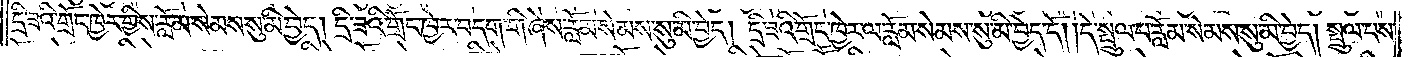དྲི་ཟའི་གྲོང་ཁྱེར་གྱིས་རློམ་སེམས་སུ་མི་བྱེད། དྲི་ཟའི་གྲོང་ཁྱེར་བདག་གི་ཞེས་རློམ་སེམས་སུ་མི་བྱེད། དྲི་ཟའི་གྲོང་ཁྱེར་ལ་རློམ་སེམས་སུ་མི་བྱེད་དོ། །དེ་སྤྲུལ་པ་རློམ་སེམས་སུ་མི་བྱེད། སྤྲུལ་པས་
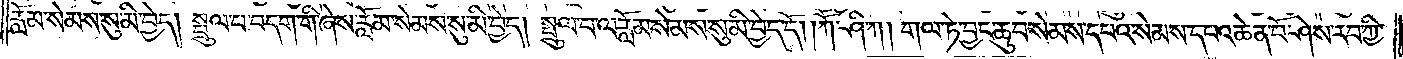རློམ་སེམས་སུ་མི་བྱེད། སྤྲུལ་པ་བདག་གི་ཞེས་རློམ་སེམས་སུ་མི་བྱེད། སྤྲུལ་པ་ལ་རློམ་སེམས་སུ་མི་བྱེད་དོ། །ཀཽ་ཤི་ཀ། གལ་ཏེ་བྱང་ཆུབ་སེམས་དཔའ་སེམས་དཔའ་ཆེན་པོ་ཤེས་རབ་ཀྱི་
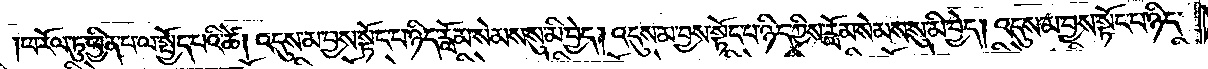ཕ་རོལ་ཏུ་ཕྱིན་པ་ལ་སྤྱོད་པའི་ཚེ། འདུས་མ་བྱས་སྟོང་པ་ཉིད་རློམ་སེམས་སུ་མི་བྱེད། འདུས་མ་བྱས་སྟོང་པ་ཉིད་ཀྱིས་རློམ་སེམས་སུ་མི་བྱེད། འདུས་མ་བྱས་སྟོང་པ་ཉིད་
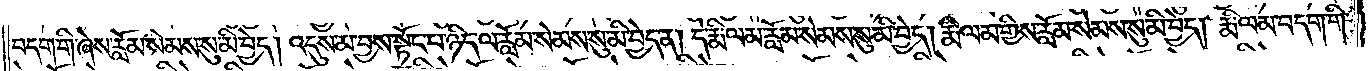བདག་གི་ཞེས་རློམ་སེམས་སུ་མི་བྱེད། འདུས་མ་བྱས་སྟོང་པ་ཉིད་ལ་རློམ་སེམས་སུ་མི་བྱེད་ན། དེ་རྨི་ལམ་རློམ་སེམས་སུ་མི་བྱེད། རྨི་ལམ་གྱིས་རློམ་སེམས་སུ་མི་བྱེད། རྨི་ལམ་བདག་གི་
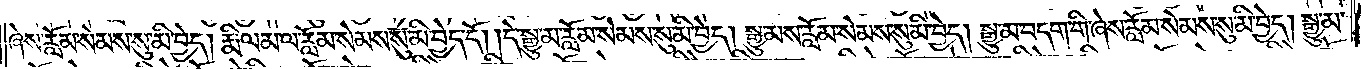ཞེས་རློམ་སེམས་སུ་མི་བྱེད། རྨི་ལམ་ལ་རློམ་སེམས་སུ་མི་བྱེད་དོ། །དེ་སྒྱུ་མ་རློམ་སེམས་སུ་མི་བྱེད། སྒྱུ་མས་རློམ་སེམས་སུ་མི་བྱེད། སྒྱུ་མ་བདག་གི་ཞེས་རློམ་སེམས་སུ་མི་བྱེད། སྒྱུ་མ་
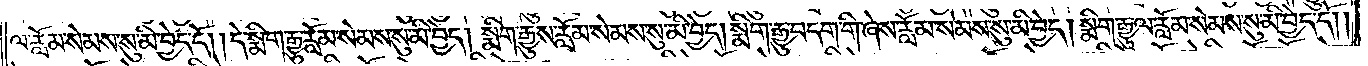ལ་རློམ་སེམས་སུ་མི་བྱེད་དོ། །དེ་སྨིག་རྒྱུ་རློམ་སེམས་སུ་མི་བྱེད། སྨིག་རྒྱུས་རློམ་སེམས་སུ་མི་བྱེད། སྨིག་རྒྱུ་བདག་གི་ཞེས་རློམ་སེམས་སུ་མི་བྱེད། སྨིག་རྒྱུ་ལ་རློམ་སེམས་སུ་མི་བྱེད་དོ། །
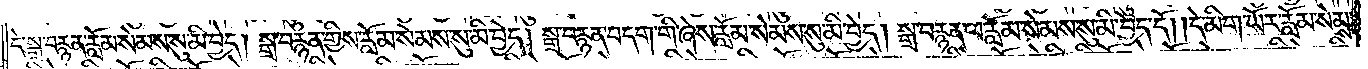དེ་སྒྲ་བརྙན་རློམ་སེམས་སུ་མི་བྱེད། སྒྲ་བརྙན་གྱིས་རློམ་སེམས་སུ་མི་བྱེད། སྒྲ་བརྙན་བདག་གི་ཞེས་རློམ་སེམས་སུ་མི་བྱེད། སྒྲ་བརྙན་ལ་རློམ་སེམས་སུ་མི་བྱེད་དོ། །དེ་མིག་ཡོར་རློམ་སེམས་
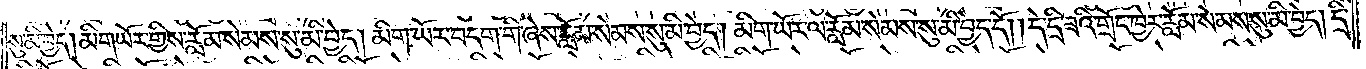སུ་མི་བྱེད། མིག་ཡོར་གྱིས་རློམ་སེམས་སུ་མི་བྱེད། མིག་ཡོར་བདག་གི་ཞེས་རློམ་སེམས་སུ་མི་བྱེད། མིག་ཡོར་ལ་རློམ་སེམས་སུ་མི་བྱེད་དོ། །དེ་དྲི་ཟའི་གྲོང་ཁྱེར་རློམ་སེམས་སུ་མི་བྱེད། དྲི་
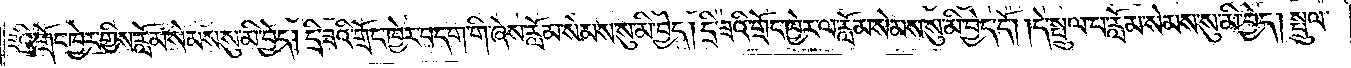ཟའི་གྲོང་ཁྱེར་གྱིས་རློམ་སེམས་སུ་མི་བྱེད། དྲི་ཟའི་གྲོང་ཁྱེར་བདག་གི་ཞེས་རློམ་སེམས་སུ་མི་བྱེད། དྲི་ཟའི་གྲོང་ཁྱེར་ལ་རློམ་སེམས་སུ་མི་བྱེད་དོ། །དེ་སྤྲུལ་པ་རློམ་སེམས་སུ་མི་བྱེད། སྤྲུལ་
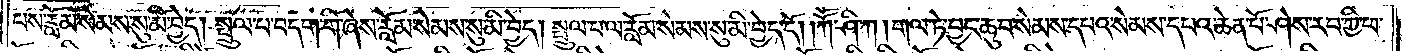པས་རློམ་སེམས་སུ་མི་བྱེད། སྤྲུལ་པ་བདག་གི་ཞེས་རློམ་སེམས་སུ་མི་བྱེད། སྤྲུལ་པ་ལ་རློམ་སེམས་སུ་མི་བྱེད་དོ། །ཀཽ་ཤི་ཀ། གལ་ཏེ་བྱང་ཆུབ་སེམས་དཔའ་སེམས་དཔའ་ཆེན་པོ་ཤེས་རབ་ཀྱི་ཕ་
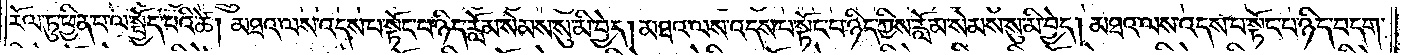རོལ་ཏུ་ཕྱིན་པ་ལ་སྤྱོད་པའི་ཚེ། མཐའ་ལས་འདས་པ་སྟོང་པ་ཉིད་རློམ་སེམས་སུ་མི་བྱེད། མཐའ་ལས་འདས་པ་སྟོང་པ་ཉིད་ཀྱིས་རློམ་སེམས་སུ་མི་བྱེད། མཐའ་ལས་འདས་པ་སྟོང་པ་ཉིད་བདག་
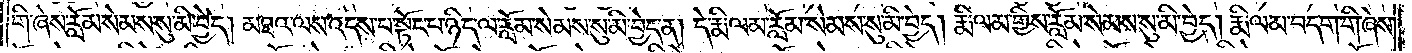གི་ཞེས་རློམ་སེམས་སུ་མི་བྱེད། མཐའ་ལས་འདས་པ་སྟོང་པ་ཉིད་ལ་རློམ་སེམས་སུ་མི་བྱེད་ན། དེ་རྨི་ལམ་རློམ་སེམས་སུ་མི་བྱེད། རྨི་ལམ་གྱིས་རློམ་སེམས་སུ་མི་བྱེད། རྨི་ལམ་བདག་གི་ཞེས་
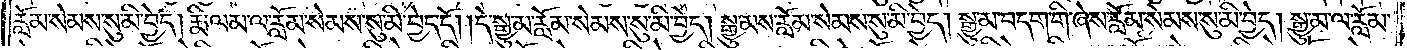རློམ་སེམས་སུ་མི་བྱེད། རྨི་ལམ་ལ་རློམ་སེམས་སུ་མི་བྱེད་དོ། །དེ་སྒྱུ་མ་རློམ་སེམས་སུ་མི་བྱེད། སྒྱུ་མས་རློམ་སེམས་སུ་མི་བྱེད། སྒྱུ་མ་བདག་གི་ཞེས་རློམ་སེམས་སུ་མི་བྱེད། སྒྱུ་མ་ལ་རློམ་
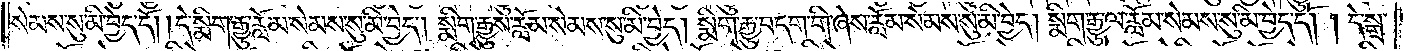སེམས་སུ་མི་བྱེད་དོ། །དེ་སྨིག་རྒྱུ་རློམ་སེམས་སུ་མི་བྱེད། སྨིག་རྒྱུས་རློམ་སེམས་སུ་མི་བྱེད། སྨིག་རྒྱུ་བདག་གི་ཞེས་རློམ་སེམས་སུ་མི་བྱེད། སྨིག་རྒྱུ་ལ་རློམ་སེམས་སུ་མི་བྱེད་དོ། །དེ་སྒྲ་
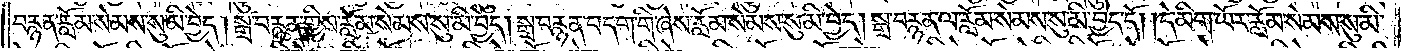བརྙན་རློམ་སེམས་སུ་མི་བྱེད། སྒྲ་བརྙན་གྱིས་རློམ་སེམས་སུ་མི་བྱེད། སྒྲ་བརྙན་བདག་གི་ཞེས་རློམ་སེམས་སུ་མི་བྱེད། སྒྲ་བརྙན་ལ་རློམ་སེམས་སུ་མི་བྱེད་དོ། །དེ་མིག་ཡོར་རློམ་སེམས་སུ་མི་
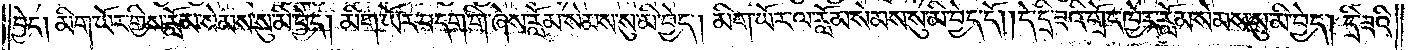བྱེད། མིག་ཡོར་གྱིས་རློམ་སེམས་སུ་མི་བྱེད། མིག་ཡོར་བདག་གི་ཞེས་རློམ་སེམས་སུ་མི་བྱེད། མིག་ཡོར་ལ་རློམ་སེམས་སུ་མི་བྱེད་དོ། །དེ་དྲི་ཟའི་གྲོང་ཁྱེར་རློམ་སེམས་སུ་མི་བྱེད། དྲི་ཟའི་
